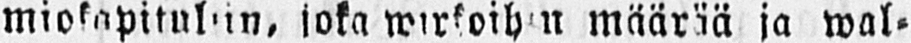miokapituliin, joka wirkoihin määrää ja wal-
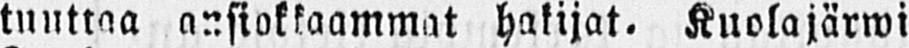tuuttaa ansiokkaammat hakijat. Kuolajärwi
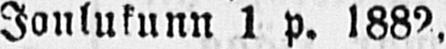Joulukuun I p. 1882.
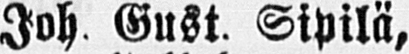Joh Gust. Sipilä,
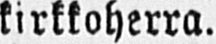kirkkoherra.
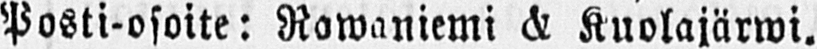Posti-osoite: Rowaniemi & Kuolajärwi.
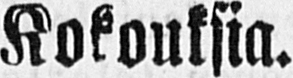Kokouksia.
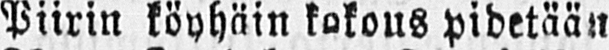8:nen Piirin köyhäin kokous pidetään
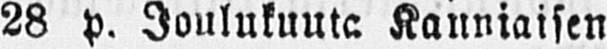28 p. Joulukuuta Kanniaisen
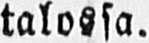talossa.
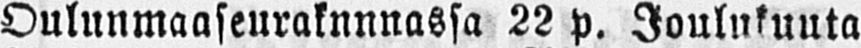Oulunmaaseuraknnnassa 22 p. Joulukuuta
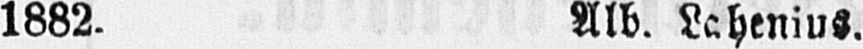1882. Alb. Lahenius.
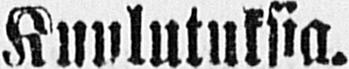Kuulutuksia.
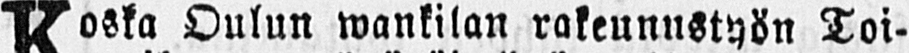Koska Oulun wankilan rakennustyön Toi-
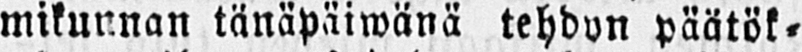mikunnan tänäpäiwänä tehdyn päätök-
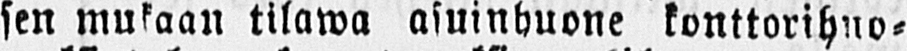sen mukaan tilawa asuinhuone konttorihuo-
